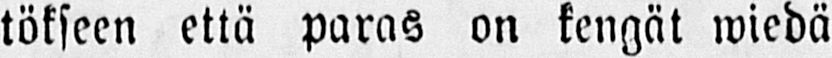tökseen että paras on kengät wiedä
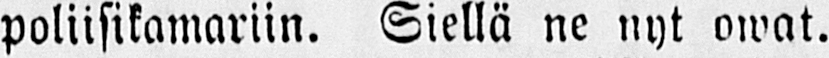poliisikamariin. Siellä ne nyt owat.
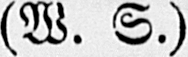(W. S.)
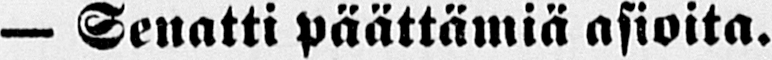— Senatti päättämiä asioita.
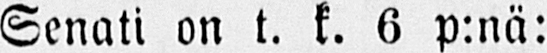Senati on t. k. 6 p:nä:
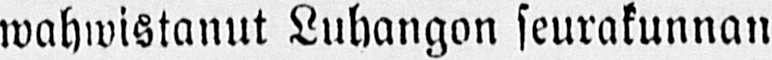wahwistanut Luhangon seurakunnan
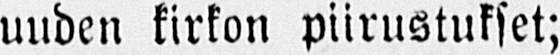uuden kirkon piirustukset;
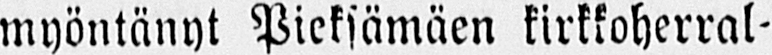myöntänyt Pieksämäen kirkkoherral-
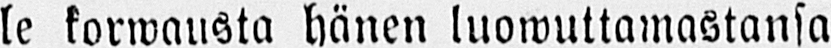le korwausta hänen luowuttamastansa
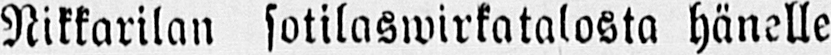Nikkarilan sotilaswirkatalosta hänelle
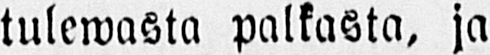tulewasta palkasta, ja
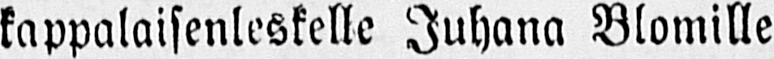kappalaisenleskelle Juhana Blomille
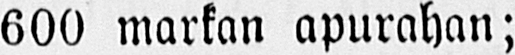600 markan apurahan;
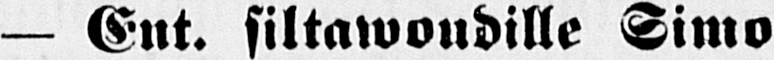— Ent. siltawoudille Simo
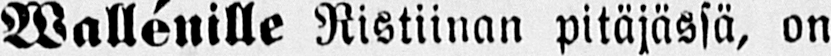Wallénille Ristiinan pitäjässä, on
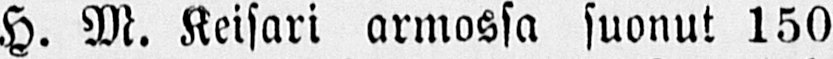H. M. Keisari armossa suonut 150
